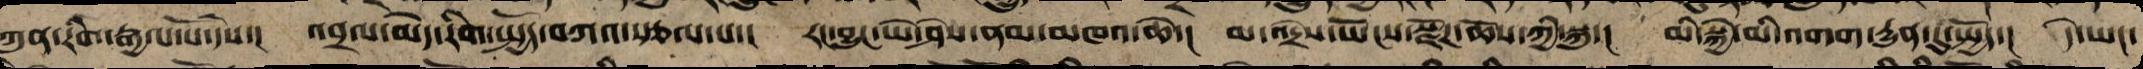ཀུན་རིག་རྒྱལ་པོ་དེས་། འབྲལ་མེད་རིག་སྤྱོད་བཀའ་སྩལ་པ་། རང་བྱུང་ཡེ་ཤེས་ནམ་མཁའ་ཆེ་། མ་འདྲེས་ཡོངས་སྫོཌ་ཆོས་ཀྱི་སྐུ་། མི་སྐྱེ་མི་འགག་རྒྱུན་དུ་སྤྱོད་། དེ་ཡང་
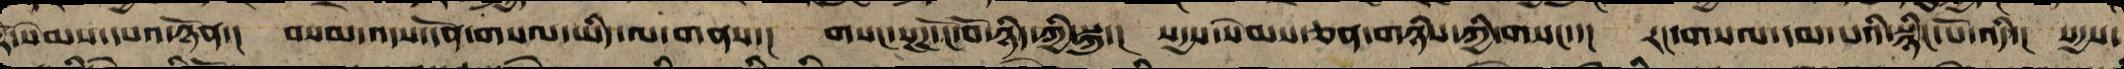རྗེ་སེམས་དཔའ་ཉོན་། བསམ་འདས་དོན་གསལ་ཡིད་ལ་གནས་། གསང་སྔཌ་ངོ་བོ་ཉིད་ཀྱི་སྐུ་། སདྱས་སེམས་ཅན་གཉིས་ཀྱི་གསང་་། རང་གསལ་དམ་པའི་སྙིང་པོ་འདི་། སདྱས་
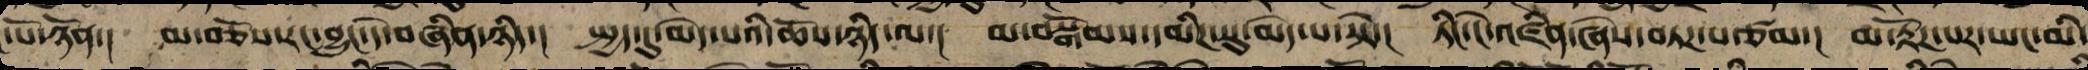་པོ་ཉོན་། མ་བཅོས་རང་བྱུང་དེ་བཞིན་ཉིད་། སྤྱད་དུ་མེད་པའི་ཆོས་ཉིད་ལ་། མ་བསྒོམས་དམིཌ་སུ་མེད་པ་སྟེ་། ཏིང་ངེ་འཛིན་ཞེས་བཏཌ་པ་ཙམ་། མ་རྟོཌ་པར་ཡང་མི་
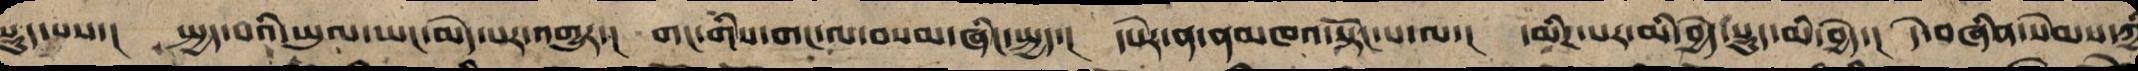སྡུད་པས་། སྤྱད་པའི་ཡུལ་ཡང་མེད་པར་འགྱུར་། གང་གིས་གང་ལ་བསམ་ཞིང་དཔྱད་། དཔེར་ན་ནམ་མཁའ་སྟོང་པ་ལ་། དམིཌ་པར་མི་བྱེད་སྡུད་མི་བྱེད་། དེ་བཞིན་སེམས་ཀྱི
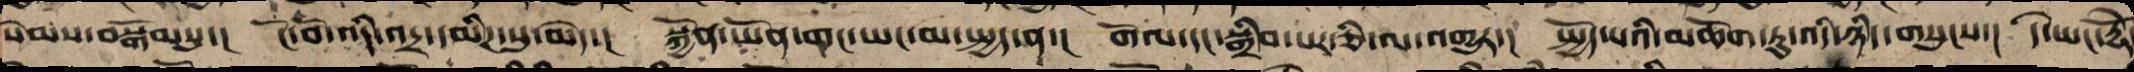སེམས་བསྒོམསུ་། ངོ་བོ་འདི་འདྲ་དམིཌ་སུ་མེད་། སྐྱོན་ཡོན་གང་ཡང་མ་སྤྱད་ན་། གོལ་དང་སྒྲིབ་པར་ཅི་ལ་འགྱུར་། སྤྱོད་པའི་མཆོག་ཏུ་འདི་ཉིད་གསུངས་། དེ་ཡང་རྡོེ་
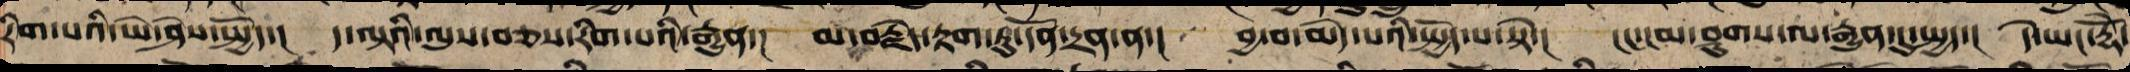རིག་པའི་ཡེ་ཤེས་སྤྱོད་། ད་ལྟའི་ལུས་བཅས་རིག་པའི་རྒྱུན་། མ་བརྗེད་རྟག་ཏུ་དོན་དྲན་ན་། བྱ་བ་མེད་པའི་སྤྱོད་པ་སྟེ་། ངང་ངམ་ཤུགས་ལ་རྒྱུན་དུ་སྤྱད་། དེ་ཡང་རྡོེ་
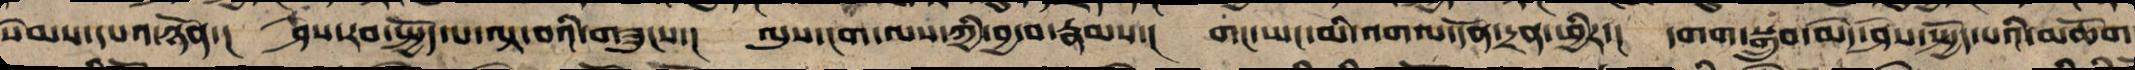སེམས་དཔའ་ཉོན་། ཤེས་རབ་སྤྱོད་པ་ལྟ་བའི་གཟུངས་། ལུས་ངག་ལས་ཀྱི་བྱ་བ་རྣམས་། གང་ཡང་མི་འགལ་དོན་དྲན་ཕྱིར་། དགག་སྒྲུབ་མེད་ཤེས་སྤྱོད་པའི་མཆོག
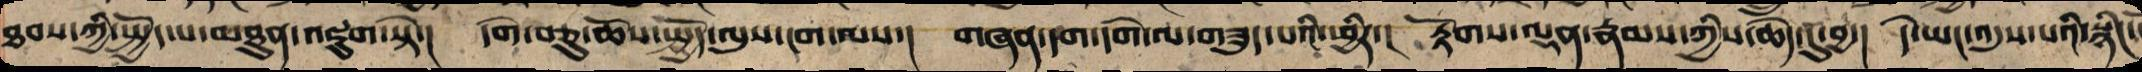ཐབས་ཀྱི་སྤྱོད་པ་མཐུན་འཇུག་སྟེ་། དགེ་བཅུ་ཆོས་སྤྱོད་ལུས་ངག་ལས་། གཞན་དག་དགེ་ལ་གཟུད་པའི་ཕྱིར་། རྟོག་ལྡན་རྣམས་ཀྱིས་ཆེད་དུ་བྱ་། དེ་ཡང་འདུས་པའི་སྙིང་
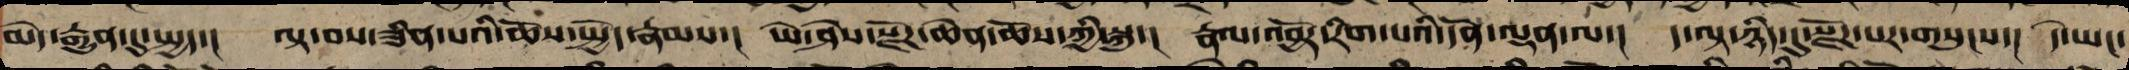མེད་རྒྱུན་དུ་སྤྱད་། ལྟ་བས་ཟིན་པའི་ཆོས་སྤྱོད་རྣམས་། ཡེ་ཤེས་གྫོས་ཆེན་ཆོས་ཀྱི་སྐུ་། རྣལ་འབྱོར་རིག་པའི་དོན་ལྡན་ལ་། ད་ལྟ་ཉིད་དུ་སྫོཌ་པར་གསུངས་། དེ་ཡང་
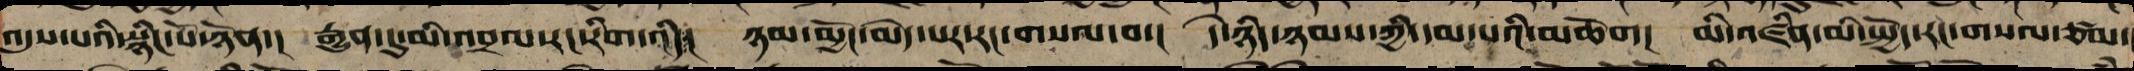འདུས་པའི་སྙིང་པོ་ཉོན་། རྒྱུན་དུ་མི་འབྲལ་རང་རིག་འདི་། ཉམ་མྱོང་མེད་པར་རང་གསལ་བ་། དེ་ཉིད་ཉམས་ཀྱི་དམ་པའི་མཆོག། མི་འཛིན་མི་སྤྱོད་རང་གསལ་ཙམ་
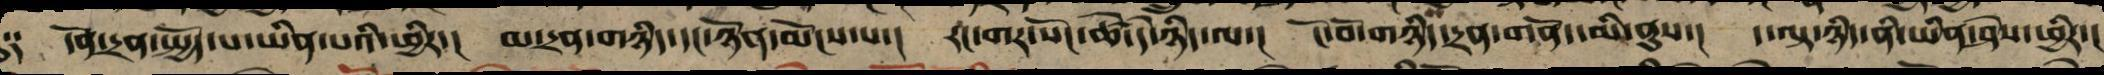༑ དོན་དྲན་སྤྱོད་པ་ཡིན་པའི་ཕྱིར་། མ་དྲན་གཉིད་དང་ཉོན་མོངས་པ་། རང་གར་སོང་ཚེ་དེ་ཉིད་ལ་། ངོ་བོ་ཉིད་དྲན་གནོད་མི་ནུས་། དེ་ལྟ་ཉིད་ནི་ཡིན་ཤེས་ཕྱིར་།
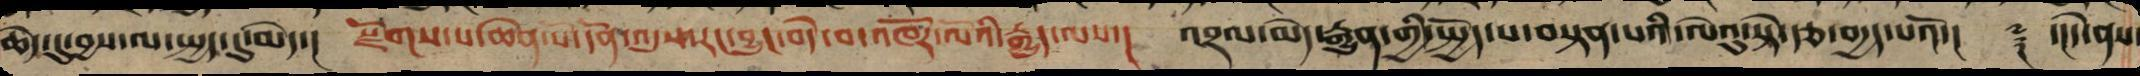ཆེད་དུ་བྱས་ལ་སྤྱད་དུ་མེད་། སྫོགས་པ་ཆེན་པོ་དོན་འདུས་རང་བྱུང་བདེ་བའི་འཁོར་ལོའི་རྒྱུད་ལས་། འབྲལ་མེད་རྒྱུན་གྱི་སྤྱོད་པ་བསྟན་པའི་ལེའུ་སྟེ་ཉི་ཤུ་རྩ་བརྒྱད་པའོ་།། ༈ ་།།དེ་ནས
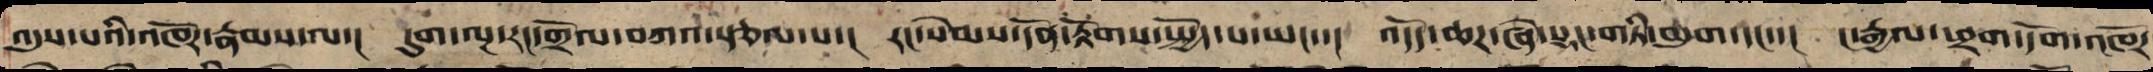འདུས་པའི་འཁོར་རྣམས་ལ་། དུག་ལྔ་རང་གྲོལ་བཀའ་སྩལ་པ་། རང་སེམས་དོན་རྟོགས་སྤྱོད་པ་ཡང་་། འདོད་ཆཌ་ཞེ་སྡང་གཏི་མུག་དང་་། ང་རྒྱལ་ཕྲག་དོག་འཁོར
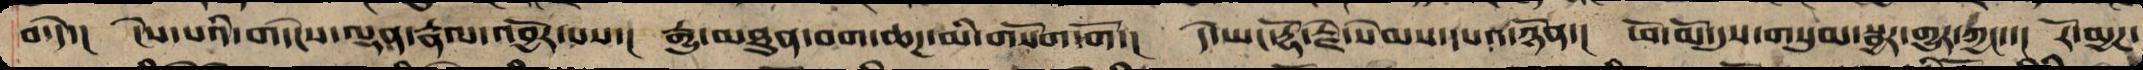བ་དེ་། ངེས་པའི་གདེངས་ལྡན་རྣལ་འབྱོར་པས་། རྒྱུ་མཐུན་བག་ཆཌ་མི་གསོག་གོ་། དེ་ཡང་རྡོ་རྗེ་སེམས་དཔའ་ཉོན་། ཕོ་མོ་དུས་གསུམ་སྦྱར་གྱུར་ཀྱང་་། རོ་མྱཌ་
